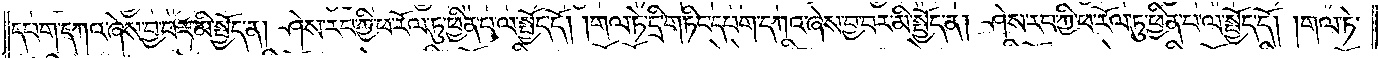དཔག་དཀའ་ཞེས་བྱ་བར་མི་སྤྱོད་ན། ཤེས་རབ་ཀྱི་ཕ་རོལ་ཏུ་ཕྱིན་པ་ལ་སྤྱོད་དོ། །གལ་ཏེ་དྲི་གཏིང་དཔག་དཀའ་ཞེས་བྱ་བར་མི་སྤྱོད་ན། ཤེས་རབ་ཀྱི་ཕ་རོལ་ཏུ་ཕྱིན་པ་ལ་སྤྱོད་དོ། །གལ་ཏེ་
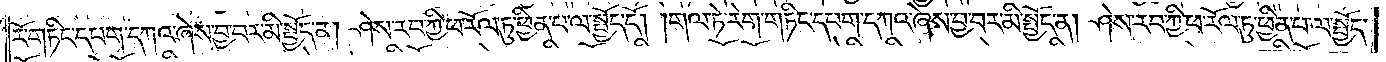རོ་གཏིང་དཔག་དཀའ་ཞེས་བྱ་བར་མི་སྤྱོད་ན། ཤེས་རབ་ཀྱི་ཕ་རོལ་ཏུ་ཕྱིན་པ་ལ་སྤྱོད་དོ། །གལ་ཏེ་རེག་གཏིང་དཔག་དཀའ་ཞེས་བྱ་བར་མི་སྤྱོད་ན། ཤེས་རབ་ཀྱི་ཕ་རོལ་ཏུ་ཕྱིན་པ་ལ་སྤྱོད་
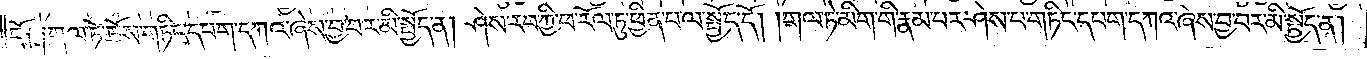དོ༑ ༑གལ་ཏེ་ཆོས་གཏིང་དཔག་དཀའ་ཞེས་བྱ་བར་མི་སྤྱོད་ན། ཤེས་རབ་ཀྱི་ཕ་རོལ་ཏུ་ཕྱིན་པ་ལ་སྤྱོད་དོ། །གལ་ཏེ་མིག་གི་རྣམ་པར་ཤེས་པ་གཏིང་དཔག་དཀའ་ཞེས་བྱ་བར་མི་སྤྱོད་ན།
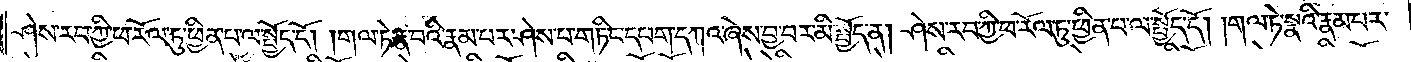ཤེས་རབ་ཀྱི་ཕ་རོལ་ཏུ་ཕྱིན་པ་ལ་སྤྱོད་དོ། །གལ་ཏེ་རྣ་བའི་རྣམ་པར་ཤེས་པ་གཏིང་དཔག་དཀའ་ཞེས་བྱ་བར་མི་སྤྱོད་ན། ཤེས་རབ་ཀྱི་ཕ་རོལ་ཏུ་ཕྱིན་པ་ལ་སྤྱོད་དོ། །གལ་ཏེ་སྣའི་རྣམ་པར་
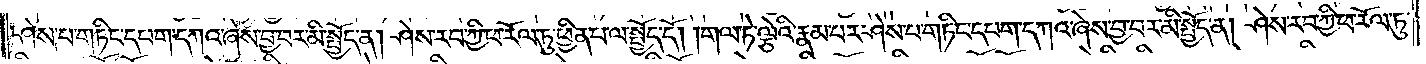ཤེས་པ་གཏིང་དཔག་དཀའ་ཞེས་བྱ་བར་མི་སྤྱོད་ན། ཤེས་རབ་ཀྱི་ཕ་རོལ་ཏུ་ཕྱིན་པ་ལ་སྤྱོད་དོ། །གལ་ཏེ་ལྕེའི་རྣམ་པར་ཤེས་པ་གཏིང་དཔག་དཀའ་ཞེས་བྱ་བར་མི་སྤྱོད་ན། ཤེས་རབ་ཀྱི་ཕ་རོལ་ཏུ་
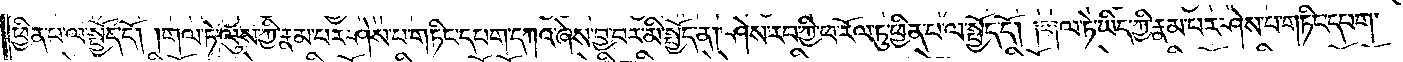ཕྱིན་པ་ལ་སྤྱོད་དོ། །གལ་ཏེ་ལུས་ཀྱི་རྣམ་པར་ཤེས་པ་གཏིང་དཔག་དཀའ་ཞེས་བྱ་བར་མི་སྤྱོད་ན། ཤེས་རབ་ཀྱི་ཕ་རོལ་ཏུ་ཕྱིན་པ་ལ་སྤྱོད་དོ། །གལ་ཏེ་ཡིད་ཀྱི་རྣམ་པར་ཤེས་པ་གཏིང་དཔག་
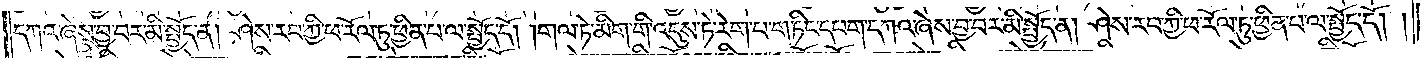དཀའ་ཞེས་བྱ་བར་མི་སྤྱོད་ན། ཤེས་རབ་ཀྱི་ཕ་རོལ་ཏུ་ཕྱིན་པ་ལ་སྤྱོད་དོ། །གལ་ཏེ་མིག་གི་འདུས་ཏེ་རེག་པ་གཏིང་དཔག་དཀའ་ཞེས་བྱ་བར་མི་སྤྱོད་ན། ཤེས་རབ་ཀྱི་ཕ་རོལ་ཏུ་ཕྱིན་པ་ལ་སྤྱོད་དོ། །
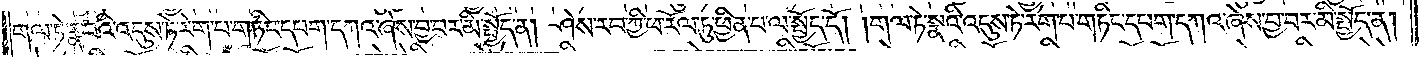གལ་ཏེ་རྣ་བའི་འདུས་ཏེ་རེག་པ་གཏིང་དཔག་དཀའ་ཞེས་བྱ་བར་མི་སྤྱོད་ན། ཤེས་རབ་ཀྱི་ཕ་རོལ་ཏུ་ཕྱིན་པ་ལ་སྤྱོད་དོ། །གལ་ཏེ་སྣའི་འདུས་ཏེ་རེག་པ་གཏིང་དཔག་དཀའ་ཞེས་བྱ་བར་མི་སྤྱོད་ན།
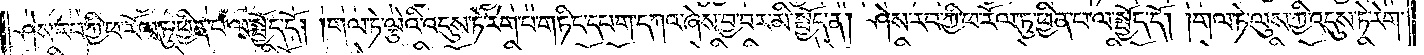ཤེས་རབ་ཀྱི་ཕ་རོལ་ཏུ་ཕྱིན་པ་ལ་སྤྱོད་དོ། །གལ་ཏེ་ལྕེའི་འདུས་ཏེ་རེག་པ་གཏིང་དཔག་དཀའ་ཞེས་བྱ་བར་མི་སྤྱོད་ན། ཤེས་རབ་ཀྱི་ཕ་རོལ་ཏུ་ཕྱིན་པ་ལ་སྤྱོད་དོ། །གལ་ཏེ་ལུས་ཀྱི་འདུས་ཏེ་རེག་
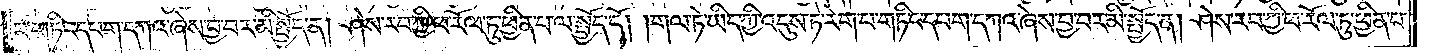པ་གཏིང་དཔག་དཀའ་ཞེས་བྱ་བར་མི་སྤྱོད་ན། ཤེས་རབ་ཀྱི་ཕ་རོལ་ཏུ་ཕྱིན་པ་ལ་སྤྱོད་དོ། །གལ་ཏེ་ཡིད་ཀྱི་འདུས་ཏེ་རེག་པ་གཏིང་དཔག་དཀའ་ཞེས་བྱ་བར་མི་སྤྱོད་ན། ཤེས་རབ་ཀྱི་ཕ་རོལ་ཏུ་ཕྱིན་པ་
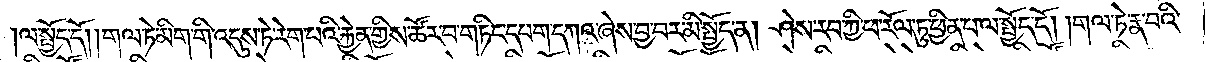ལ་སྤྱོད་དོ། །གལ་ཏེ་མིག་གི་འདུས་ཏེ་རེག་པའི་རྐྱེན་གྱིས་ཚོར་བ་གཏིང་དཔག་དཀའ་ཞེས་བྱ་བར་མི་སྤྱོད་ན། ཤེས་རབ་ཀྱི་ཕ་རོལ་ཏུ་ཕྱིན་པ་ལ་སྤྱོད་དོ། །གལ་ཏེ་རྣ་བའི་
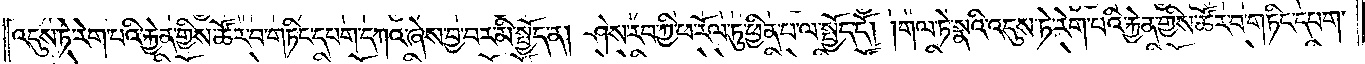འདུས་ཏེ་རེག་པའི་རྐྱེན་གྱིས་ཚོར་བ་གཏིང་དཔག་དཀའ་ཞེས་བྱ་བར་མི་སྤྱོད་ན། ཤེས་རབ་ཀྱི་ཕ་རོལ་ཏུ་ཕྱིན་པ་ལ་སྤྱོད་དོ། །གལ་ཏེ་སྣའི་འདུས་ཏེ་རེག་པའི་རྐྱེན་གྱིས་ཚོར་བ་གཏིང་དཔག་
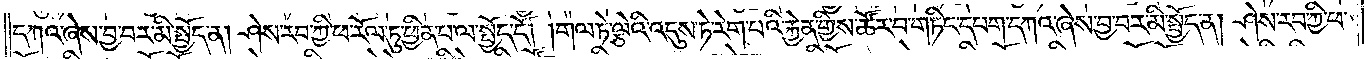དཀའ་ཞེས་བྱ་བར་མི་སྤྱོད་ན། ཤེས་རབ་ཀྱི་ཕ་རོལ་ཏུ་ཕྱིན་པ་ལ་སྤྱོད་དོ། །གལ་ཏེ་ལྕེའི་འདུས་ཏེ་རེག་པའི་རྐྱེན་གྱིས་ཚོར་བ་གཏིང་དཔག་དཀའ་ཞེས་བྱ་བར་མི་སྤྱོད་ན། ཤེས་རབ་ཀྱི་ཕ་
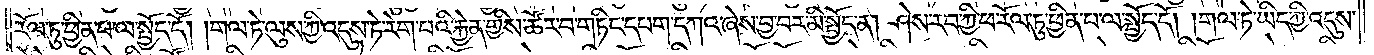རོལ་ཏུ་ཕྱིན་པ་ལ་སྤྱོད་དོ། །གལ་ཏེ་ལུས་ཀྱི་འདུས་ཏེ་རེག་པའི་རྐྱེན་གྱིས་ཚོར་བ་གཏིང་དཔག་དཀའ་ཞེས་བྱ་བར་མི་སྤྱོད་ན། ཤེས་རབ་ཀྱི་ཕ་རོལ་ཏུ་ཕྱིན་པ་ལ་སྤྱོད་དོ། །གལ་ཏེ་ཡིད་ཀྱི་འདུས་
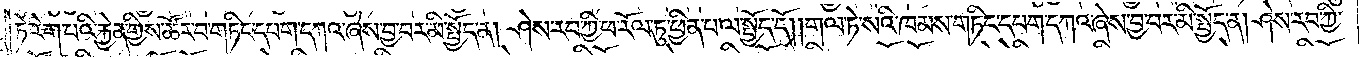ཏེ་རེག་པའི་རྐྱེན་གྱིས་ཚོར་བ་གཏིང་དཔག་དཀའ་ཞེས་བྱ་བར་མི་སྤྱོད་ན། ཤེས་རབ་ཀྱི་ཕ་རོལ་ཏུ་ཕྱིན་པ་ལ་སྤྱོད་དོ། །གལ་ཏེ་སའི་ཁམས་གཏིང་དཔག་དཀའ་ཞེས་བྱ་བར་མི་སྤྱོད་ན། ཤེས་རབ་ཀྱི་
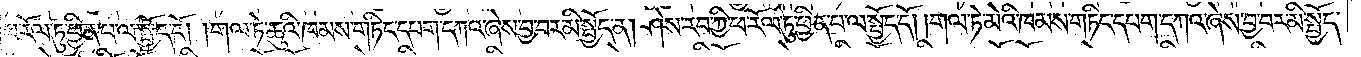ཕ་རོལ་ཏུ་ཕྱིན་པ་ལ་སྤྱོད་དོ། །གལ་ཏེ་ཆུའི་ཁམས་གཏིང་དཔག་དཀའ་ཞེས་བྱ་བར་མི་སྤྱོད་ན། ཤེས་རབ་ཀྱི་ཕ་རོལ་ཏུ་ཕྱིན་པ་ལ་སྤྱོད་དོ། །གལ་ཏེ་མེའི་ཁམས་གཏིང་དཔག་དཀའ་ཞེས་བྱ་བར་མི་སྤྱོད་
